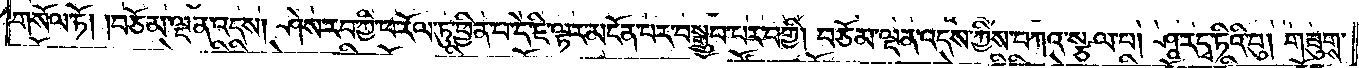གསོལ་ཏོ། །བཅོམ་ལྡན་འདས། ཤེས་རབ་ཀྱི་ཕ་རོལ་ཏུ་ཕྱིན་པ་དེ་ཇི་ལྟར་མངོན་པར་བསྒྲུབ་པར་བགྱི། བཅོམ་ལྡན་འདས་ཀྱིས་བཀའ་སྩལ་པ། ཤཱ་ར་དྭ་ཏིའི་བུ། གཟུགས་
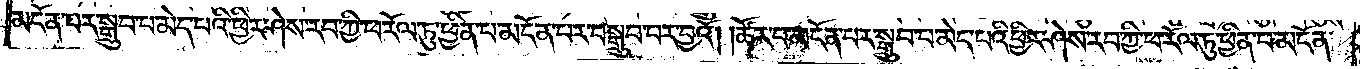མངོན་པར་སྒྲུབ་པ་མེད་པའི་ཕྱིར་ཤེས་རབ་ཀྱི་ཕ་རོལ་ཏུ་ཕྱིན་པ་མངོན་པར་བསྒྲུབ་པར་བྱའོ། །ཚོར་བ་མངོན་པར་སྒྲུབ་པ་མེད་པའི་ཕྱིར་ཤེས་རབ་ཀྱི་ཕ་རོལ་ཏུ་ཕྱིན་པ་མངོན་
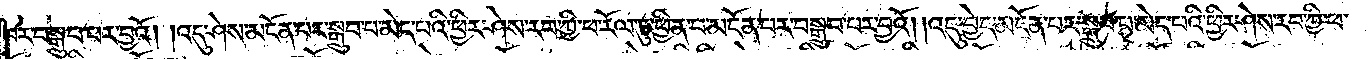པར་བསྒྲུབ་པར་བྱའོ། །འདུ་ཤེས་མངོན་པར་སྒྲུབ་པ་མེད་པའི་ཕྱིར་ཤེས་རབ་ཀྱི་ཕ་རོལ་ཏུ་ཕྱིན་པ་མངོན་པར་བསྒྲུབ་པར་བྱའོ། །འདུ་བྱེད་མངོན་པར་སྒྲུབ་པ་མེད་པའི་ཕྱིར་ཤེས་རབ་ཀྱི་ཕ་
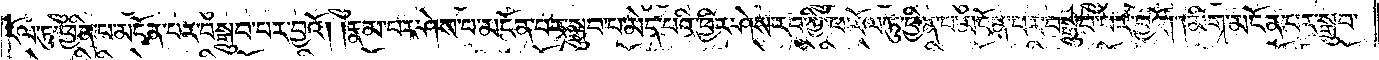རོལ་ཏུ་ཕྱིན་པ་མངོན་པར་བསྒྲུབ་པར་བྱའོ། །རྣམ་པར་ཤེས་པ་མངོན་པར་སྒྲུབ་པ་མེད་པའི་ཕྱིར་ཤེས་རབ་ཀྱི་ཕ་རོལ་ཏུ་ཕྱིན་པ་མངོན་པར་བསྒྲུབ་པར་བྱའོ། །མིག་མངོན་པར་སྒྲུབ་
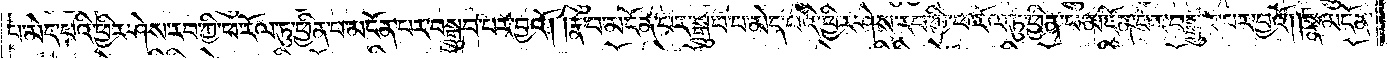པ་མེད་པའི་ཕྱིར་ཤེས་རབ་ཀྱི་ཕ་རོལ་ཏུ་ཕྱིན་པ་མངོན་པར་བསྒྲུབ་པར་བྱའོ། །རྣ་བ་མངོན་པར་སྒྲུབ་པ་མེད་པའི་ཕྱིར་ཤེས་རབ་ཀྱི་ཕ་རོལ་ཏུ་ཕྱིན་པ་མངོན་པར་བསྒྲུབ་པར་བྱའོ། །སྣ་མངོན་
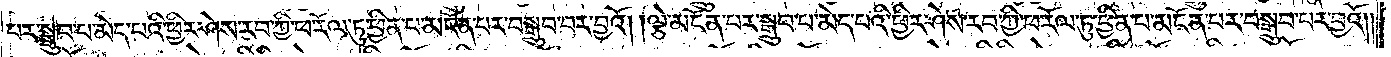པར་སྒྲུབ་པ་མེད་པའི་ཕྱིར་ཤེས་རབ་ཀྱི་ཕ་རོལ་ཏུ་ཕྱིན་པ་མངོན་པར་བསྒྲུབ་པར་བྱའོ། །ལྕེ་མངོན་པར་སྒྲུབ་པ་མེད་པའི་ཕྱིར་ཤེས་རབ་ཀྱི་ཕ་རོལ་ཏུ་ཕྱིན་པ་མངོན་པར་བསྒྲུབ་པར་བྱའོ། །
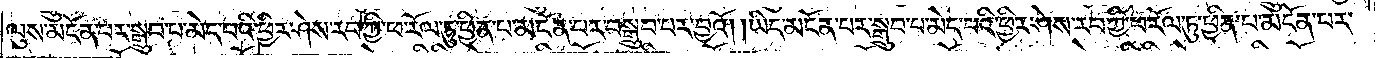ལུས་མངོན་པར་སྒྲུབ་པ་མེད་པའི་ཕྱིར་ཤེས་རབ་ཀྱི་ཕ་རོལ་ཏུ་ཕྱིན་པ་མངོན་པར་བསྒྲུབ་པར་བྱའོ། །ཡིད་མངོན་པར་སྒྲུབ་པ་མེད་པའི་ཕྱིར་ཤེས་རབ་ཀྱི་ཕ་རོལ་ཏུ་ཕྱིན་པ་མངོན་པར་
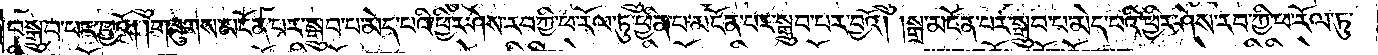བསྒྲུབ་པར་བྱའོ། །གཟུགས་མངོན་པར་སྒྲུབ་པ་མེད་པའི་ཕྱིར་ཤེས་རབ་ཀྱི་ཕ་རོལ་ཏུ་ཕྱིན་པ་མངོན་པར་བསྒྲུབ་པར་བྱའོ། །སྒྲ་མངོན་པར་སྒྲུབ་པ་མེད་པའི་ཕྱིར་ཤེས་རབ་ཀྱི་ཕ་རོལ་ཏུ་
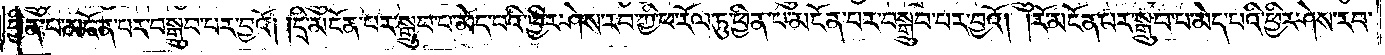ཕྱིན་པ་མངོན་པར་བསྒྲུབ་པར་བྱའོ། །དྲི་མངོན་པར་སྒྲུབ་པ་མེད་པའི་ཕྱིར་ཤེས་རབ་ཀྱི་ཕ་རོལ་ཏུ་ཕྱིན་པ་མངོན་པར་བསྒྲུབ་པར་བྱའོ། །རོ་མངོན་པར་སྒྲུབ་པ་མེད་པའི་ཕྱིར་ཤེས་རབ་
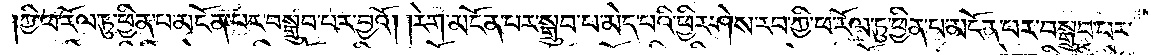ཀྱི་ཕ་རོལ་ཏུ་ཕྱིན་པ་མངོན་པར་བསྒྲུབ་པར་བྱའོ། །རེག་མངོན་པར་སྒྲུབ་པ་མེད་པའི་ཕྱིར་ཤེས་རབ་ཀྱི་ཕ་རོལ་ཏུ་ཕྱིན་པ་མངོན་པར་བསྒྲུབ་པར་
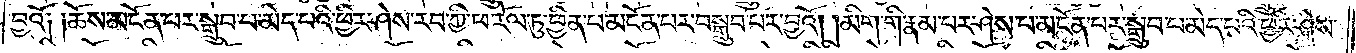བྱའོ༑ ༑ཆོས་མངོན་པར་སྒྲུབ་པ་མེད་པའི་ཕྱིར་ཤེས་རབ་ཀྱི་ཕ་རོལ་ཏུ་ཕྱིན་པ་མངོན་པར་བསྒྲུབ་པར་བྱའོ། །མིག་གི་རྣམ་པར་ཤེས་པ་མངོན་པར་སྒྲུབ་པ་མེད་པའི་ཕྱིར་ཤེས་
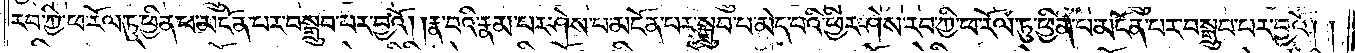རབ་ཀྱི་ཕ་རོལ་ཏུ་ཕྱིན་པ་མངོན་པར་བསྒྲུབ་པར་བྱའོ། །རྣ་བའི་རྣམ་པར་ཤེས་པ་མངོན་པར་སྒྲུབ་པ་མེད་པའི་ཕྱིར་ཤེས་རབ་ཀྱི་ཕ་རོལ་ཏུ་ཕྱིན་པ་མངོན་པར་བསྒྲུབ་པར་བྱའོ། །
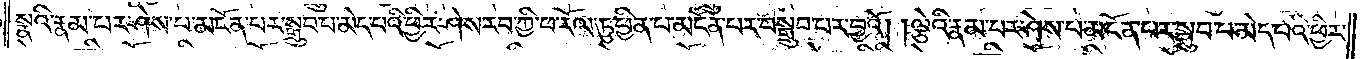སྣའི་རྣམ་པར་ཤེས་པ་མངོན་པར་སྒྲུབ་པ་མེད་པའི་ཕྱིར་ཤེས་རབ་ཀྱི་ཕ་རོལ་ཏུ་ཕྱིན་པ་མངོན་པར་བསྒྲུབ་པར་བྱའོ། །ལྕེའི་རྣམ་པར་ཤེས་པ་མངོན་པར་སྒྲུབ་པ་མེད་པའི་ཕྱིར་
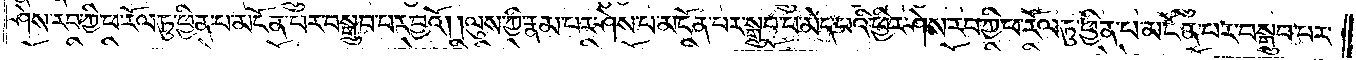ཤེས་རབ་ཀྱི་ཕ་རོལ་ཏུ་ཕྱིན་པ་མངོན་པར་བསྒྲུབ་པར་བྱའོ། །ལུས་ཀྱི་རྣམ་པར་ཤེས་པ་མངོན་པར་སྒྲུབ་པ་མེད་པའི་ཕྱིར་ཤེས་རབ་ཀྱི་ཕ་རོལ་ཏུ་ཕྱིན་པ་མངོན་པར་བསྒྲུབ་པར་
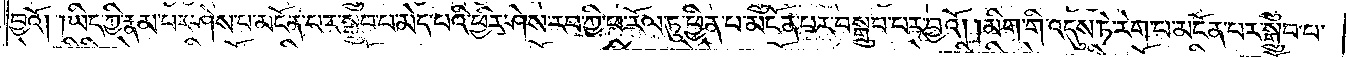བྱའོ། །ཡིད་ཀྱི་རྣམ་པར་ཤེས་པ་མངོན་པར་སྒྲུབ་པ་མེད་པའི་ཕྱིར་ཤེས་རབ་ཀྱི་ཕ་རོལ་ཏུ་ཕྱིན་པ་མངོན་པར་བསྒྲུབ་པར་བྱའོ། །མིག་གི་འདུས་ཏེ་རེག་པ་མངོན་པར་སྒྲུབ་པ་
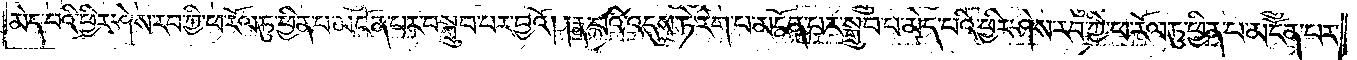མེད་པའི་ཕྱིར་ཤེས་རབ་ཀྱི་ཕ་རོལ་ཏུ་ཕྱིན་པ་མངོན་པར་བསྒྲུབ་པར་བྱའོ། །རྣ་བའི་འདུས་ཏེ་རེག་པ་མངོན་པར་སྒྲུབ་པ་མེད་པའི་ཕྱིར་ཤེས་རབ་ཀྱི་ཕ་རོལ་ཏུ་ཕྱིན་པ་མངོན་པར་
